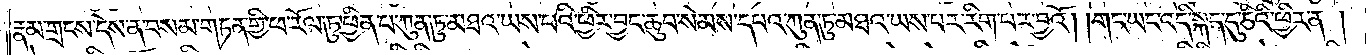རྣམ་གྲངས་དེས་ན་བསམ་གཏན་གྱི་ཕ་རོལ་ཏུ་ཕྱིན་པ་ཀུན་ཏུ་མཐའ་ཡས་པའི་ཕྱིར་བྱང་ཆུབ་སེམས་དཔའ་ཀུན་ཏུ་མཐའ་ཡས་པར་རིག་པར་བྱའོ། །གང་ཡང་འདི་སྐད་དུ་ཅིའི་ཕྱིར་ན།
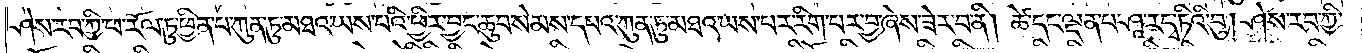ཤེས་རབ་ཀྱི་ཕ་རོལ་ཏུ་ཕྱིན་པ་ཀུན་ཏུ་མཐའ་ཡས་པའི་ཕྱིར་བྱང་ཆུབ་སེམས་དཔའ་ཀུན་ཏུ་མཐའ་ཡས་པར་རིག་པར་བྱ་ཞེས་ཟེར་བ་ནི། ཚེ་དང་ལྡན་པ་ཤཱ་ར་དྭ་ཏིའི་བུ། ཤེས་རབ་ཀྱི་
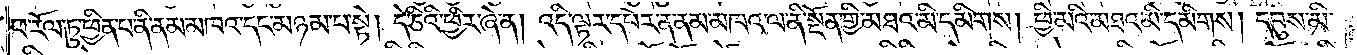ཕ་རོལ་ཏུ་ཕྱིན་པ་ནི་ནམ་མཁའ་དང་མཉམ་པ་སྟེ། དེ་ཅིའི་ཕྱིར་ཞེ་ན། འདི་ལྟར་དཔེར་ན་ནམ་མཁའ་ལ་ནི་སྔོན་གྱི་མཐའ་མི་དམིགས། ཕྱི་མའི་མཐའ་མི་དམིགས། དབུས་མི་
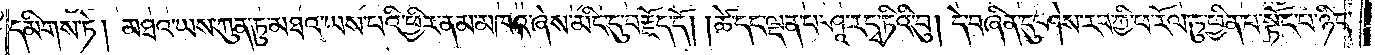དམིགས་ཏེ། མཐའ་ཡས་ཀུན་ཏུ་མཐའ་ཡས་པའི་ཕྱིར་ནམ་མཁའ་ཞེས་མིང་དུ་བརྗོད་དོ། །ཚེ་དང་ལྡན་པ་ཤཱ་ར་དྭ་ཏིའི་བུ། དེ་བཞིན་དུ་ཤེས་རབ་ཀྱི་ཕ་རོལ་ཏུ་ཕྱིན་པ་སྟོང་པ་ཉིད་
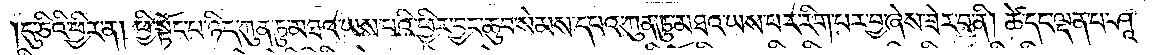དུ་ཅིའི་ཕྱིར་ན། ཕྱི་སྟོང་པ་ཉིད་ཀུན་ཏུ་མཐའ་ཡས་པའི་ཕྱིར་བྱང་ཆུབ་སེམས་དཔའ་ཀུན་ཏུ་མཐའ་ཡས་པར་རིག་པར་བྱ་ཞེས་ཟེར་བ་ནི། ཚེ་དང་ལྡན་པ་ཤཱ་
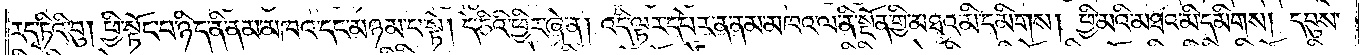ར་དྭ་ཏིའི་བུ། ཕྱི་སྟོང་པ་ཉིད་ནི་ནམ་མཁའ་དང་མཉམ་པ་སྟེ། དེ་ཅིའི་ཕྱིར་ཞེ་ན། འདི་ལྟར་དཔེར་ན་ནམ་མཁའ་ལ་ནི་སྔོན་གྱི་མཐའ་མི་དམིགས། ཕྱི་མའི་མཐའ་མི་དམིགས། དབུས་
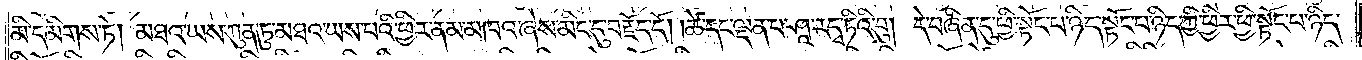མི་དམིགས་ཏེ། མཐའ་ཡས་ཀུན་ཏུ་མཐའ་ཡས་པའི་ཕྱིར་ནམ་མཁའ་ཞེས་མིང་དུ་བརྗོད་དོ། །ཚེ་དང་ལྡན་པ་ཤཱ་ར་དྭ་ཏིའི་བུ། དེ་བཞིན་དུ་ཕྱི་སྟོང་པ་ཉིད་ཀྱི་ཕྱིར་ཕྱི་སྟོང་པ་ཉིད་
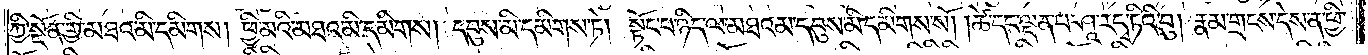ཀྱི་སྔོན་གྱི་མཐའ་མི་དམིགས། ཕྱི་མའི་མཐའ་མི་དམིགས། དབུས་མི་དམིགས་ཏེ། སྟོང་པ་ཉིད་ལ་མཐའམ་དབུས་མི་དམིགས་སོ། །ཚེ་དང་ལྡན་པ་ཤཱ་ར་དྭ་ཏིའི་བུ། རྣམ་གྲངས་དེས་ན་ཕྱི་
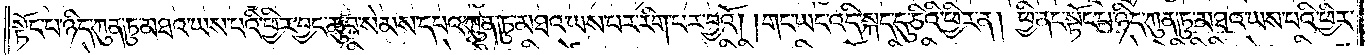སྟོང་པ་ཉིད་ཀུན་ཏུ་མཐའ་ཡས་པའི་ཕྱིར་བྱང་ཆུབ་སེམས་དཔའ་ཀུན་ཏུ་མཐའ་ཡས་པར་རིག་པར་བྱའོ། །གང་ཡང་འདི་སྐད་དུ་ཅིའི་ཕྱིར་ན། ཕྱི་ནང་སྟོང་པ་ཉིད་ཀུན་ཏུ་མཐའ་ཡས་པའི་ཕྱིར་
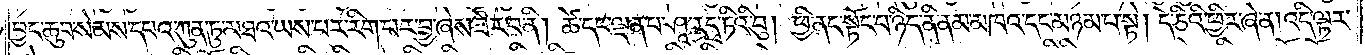བྱང་ཆུབ་སེམས་དཔའ་ཀུན་ཏུ་མཐའ་ཡས་པར་རིག་པར་བྱ་ཞེས་ཟེར་བ་ནི། ཚེ་དང་ལྡན་པ་ཤཱ་ར་དྭ་ཏིའི་བུ། ཕྱི་ནང་སྟོང་པ་ཉིད་ནི་ནམ་མཁའ་དང་མཉམ་པ་སྟེ། དེ་ཅིའི་ཕྱིར་ཞེ་ན། འདི་ལྟར་
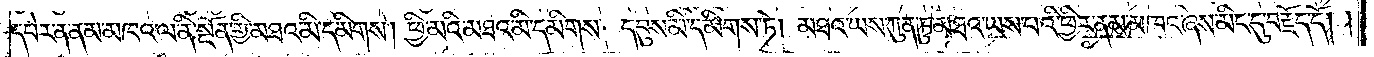དཔེར་ན་ནམ་མཁའ་ལ་ནི་སྔོན་གྱི་མཐའ་མི་དམིགས། ཕྱི་མའི་མཐའ་མི་དམིགས། དབུས་མི་དམིགས་ཏེ། མཐའ་ཡས་ཀུན་ཏུ་མཐའ་ཡས་པའི་ཕྱིར་ནམ་མཁའ་ཞེས་མིང་དུ་བརྗོད་དོ། །
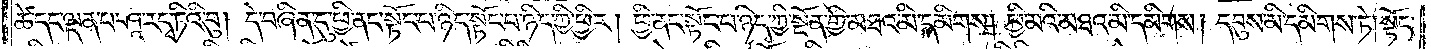ཚེ་དང་ལྡན་པ་ཤཱ་ར་དྭ་ཏིའི་བུ། དེ་བཞིན་དུ་ཕྱི་ནང་སྟོང་པ་ཉིད་ཀྱི་ཕྱིར། ཕྱི་ནང་སྟོང་པ་ཉིད་ཀྱི་སྔོན་གྱི་མཐའ་མི་དམིགས། ཕྱི་མའི་མཐའ་མི་དམིགས། དབུས་མི་དམིགས་ཏེ། སྟོང་
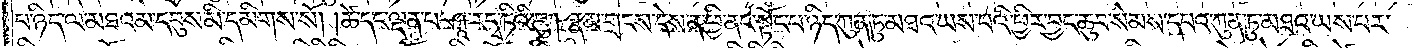པ་ཉིད་ལ་མཐའམ་དབུས་མི་དམིགས་སོ། །ཚེ་དང་ལྡན་པ་ཤཱ་ར་དྭ་ཏིའི་བུ། རྣམ་གྲངས་དེས་ན་ཕྱི་ནང་སྟོང་པ་ཉིད་ཀུན་ཏུ་མཐའ་ཡས་པའི་ཕྱིར་བྱང་ཆུབ་སེམས་དཔའ་ཀུན་ཏུ་མཐའ་ཡས་པར་
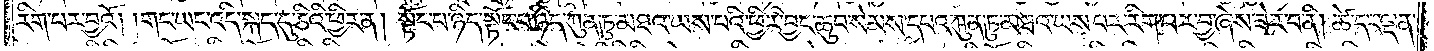རིག་པར་བྱའོ། །གང་ཡང་འདི་སྐད་དུ་ཅིའི་ཕྱིར་ན། སྟོང་པ་ཉིད་སྟོང་པ་ཉིད་ཀུན་ཏུ་མཐའ་ཡས་པའི་ཕྱིར་བྱང་ཆུབ་སེམས་དཔའ་ཀུན་ཏུ་མཐའ་ཡས་པར་རིག་པར་བྱ་ཞེས་ཟེར་བ་ནི། ཚེ་དང་ལྡན་
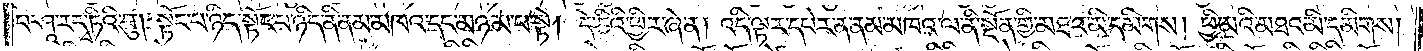པ་ཤཱ་ར་དྭ་ཏིའི་བུ། སྟོང་པ་ཉིད་སྟོང་པ་ཉིད་ནི་ནམ་མཁའ་དང་མཉམ་པ་སྟེ། དེ་ཅིའི་ཕྱིར་ཞེ་ན། འདི་ལྟར་དཔེར་ན་ནམ་མཁའ་ལ་ནི་སྔོན་གྱི་མཐའ་མི་དམིགས། ཕྱི་མའི་མཐའ་མི་དམིགས།
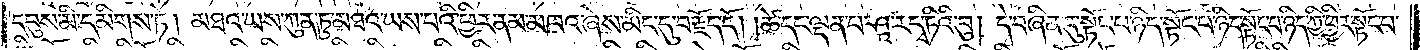དབུས་མི་དམིགས་ཏེ། མཐའ་ཡས་ཀུན་ཏུ་མཐའ་ཡས་པའི་ཕྱིར་ནམ་མཁའ་ཞེས་མིང་དུ་བརྗོད་དོ། །ཚེ་དང་ལྡན་པ་ཤཱ་ར་དྭ་ཏིའི་བུ། དེ་བཞིན་དུ་སྟོང་པ་ཉིད་སྟོང་པ་ཉིད་ཀྱི་ཕྱིར་སྟོང་པ་
